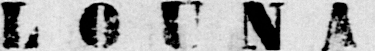LOUNAS
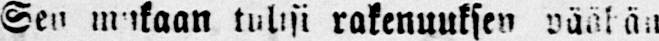Sen mukaan tulisi rakennuksen pääjän
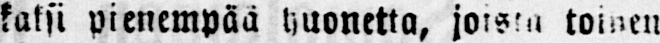kaksi pienempää huonetta, joista toinen
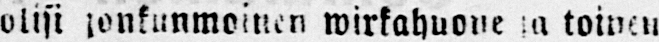olisi jonkunmoinen wirkahuone ja toinen
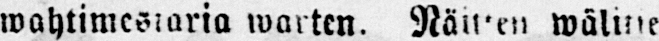wahtimestaria warten. Näiden wäline
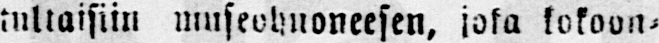tuliaisiin museohuoneesen, joka kokoon-
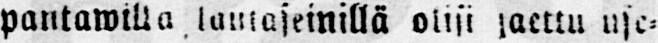pantawilla lautaseinillä olisi jaettu use-
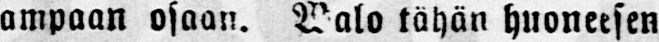ampaan osaan. Walo tähän huoneesen
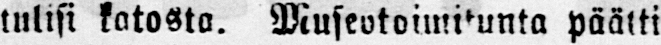tulisi katosta. Museotoimitunta päätti
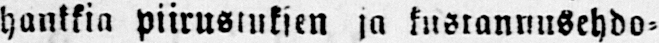hankkia piirustuksen ja kustannusehdo-
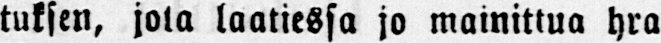tuksen, joka laatiessa jo mainittua hra
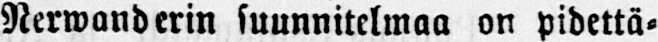Nerwanderin suunnitelmaa on pidettä-
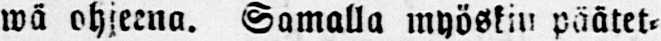wä ohjeena. Samalla myöskin päätet-
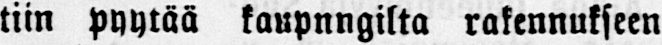tiin pyytää kaupnngilta rakennukseen
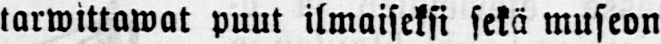tarwittawat puut ilmaiseksi sekä museon
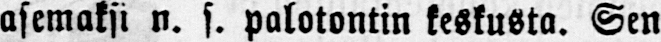asemaksi n. s. palotontin keskusta. Sen
